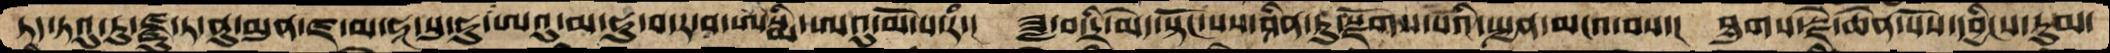ཏད་ཏའུ་རུ་ཛྫུ་ཏ་ནུ་མུན་ཛ་མ་ཧཱ་སུ་ཧུ་ཨའུ་མ་ཧུ་བ་ར་བ་ཨསྨི་ཨའུ་མོ་ས་རཾ་།  ཟླ་བ་དྲི་མེད་སྟོང་པས་ཤིན་ཏུ་སྫོགས་པའི་སྤྱན་མངའ་བས་།  ཐུགས་རྗེ་ཆེན་པོས་དབྱིངས་རུམ་
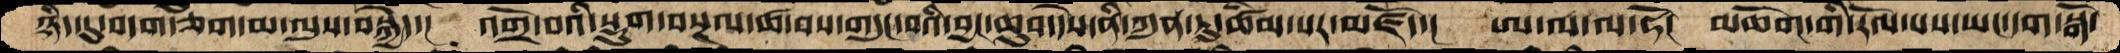ཉིད་དུ་བདག་ཅག་མ་ལུས་བསྐྱེད་།  འགྲོ་བའི་སྡུག་བསྔལ་ཚ་བས་གདུང་བའི་བྱང་ཆུབ་དེས་ནི་ཀུན་ཏུ་ཚིམ་པར་མཛོད་།   ཨ་ལ་ལ་ཧོ།  མཆོག་གི་རོལ་པས་ཡང་དག་སྒོ་
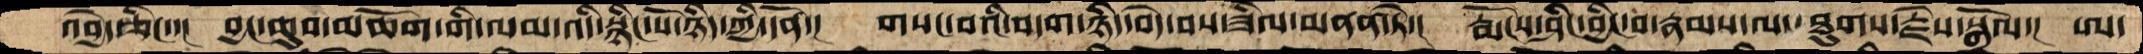འབྱེད་ཅིང་་།   བྱང་ཆུབ་མཆོག་གི་ལམ་འདི་སྙིང་པོ་ཉིད་ཀྱི་དོན་།  གསང་བའི་བདག་ཉིད་བདེ་བས་ཟིལ་མནན་ཏེ་།  རྨོངས་ཤིང་བྱིང་བ་རྣམས་ལ་ཐུགས་རྗེས་སྒྲོལ་།  ཨ་
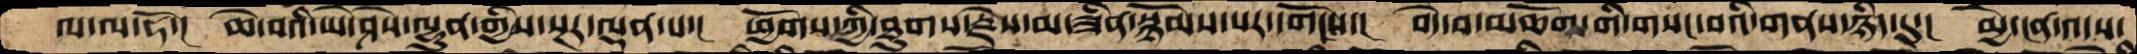ལ་ལ་ཧོ་།  ཆེ་བའི་ཡེ་ཤེས་ལྷུན་གྱིས་སྔར་ལྡན་པ་།  ཕྱོགས་ཀྱི་ཐུགས་རྗེས་མ་ཟིན་སྙོམས་པར་དགོངས་།  བདེ་བ་མཆོག་གི་གསང་བའི་གནས་ཉིད་དུ་།  མྱ་ངན་འདས་
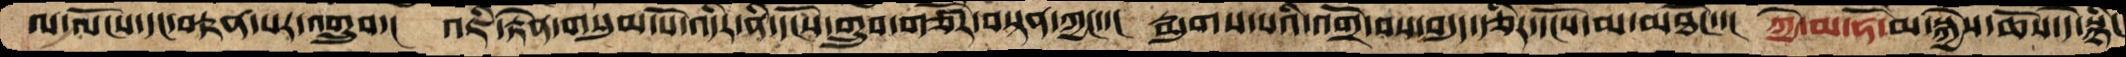ལ་ལོངས་དང་བརྟན་པར་འགྲུབ་།  འཇི་རྟེན་གསུམ་པོ་འདིར་ནི་དངོས་གྲུབ་གཙོར་བསྟན་ཀྱང་་།  རྨུགས་པའི་འགྲོ་བས་བདུད་རྩིར་དངོས་མ་མཐོང་་།  ཀྱེ་མ་ཧོ་མ་སྐྱེས་ཆོས་དེ་སྙིང
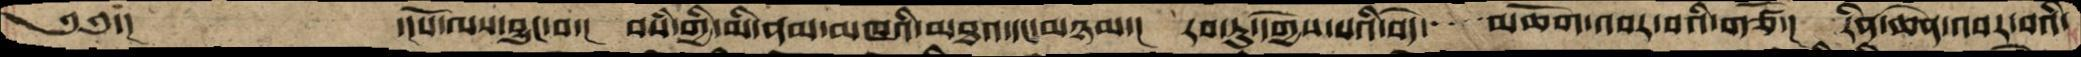༄༅་།        ་།པོ་ལས་བྱུང་བ་།   བསཾ་གྱི་མི་ནམ་མཁའི་མཐའ་དང་མཉམ་།  རབ་ཏུ་དགྱེས་པའི་བདེ་     མཆོག་འབར་བའི་གཙོ་།  རིན་ཆེན་འབར་བའི་
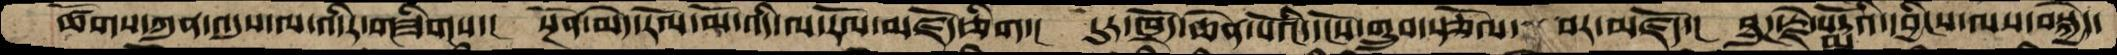ཚོགས་ཀུན་འདུས་ལ་འདིར་གཟིགས་།  སྔོན་མེད་རོལ་མོ་འདི་ལ་རོལ་མཛོད་ཅིག་།  དུར་ཁྲོད་ཆེན་པོའི་དངོས་གྲུབ་སྩོལ་   བར་མཛོད་།  ཐུཌ་རྗེ་པདྨོའི་དབྱིངས་ལས་བསྐྱེད་
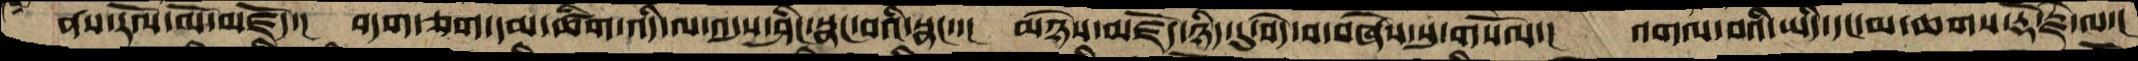ནས་རོལ་མོ་མཛོད་།   བདག་ཅག་དམ་ཚིག་འདི་ལ་འདུས་ཤིང་སྣང་བའི་སྣང་་།  མཉེས་མཛོད་ཉིད་དུ་བདེ་བ་བཞེས་སུ་གསོལ་།  འགལ་བའི་ཡིད་དང་མ་ཆགས་རྡོ་རྗེ་ལ་།
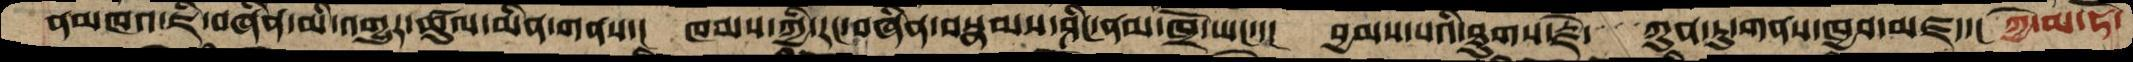ནམཁའ་ཇི་བཞིན་མི་འགྱུར་ཚུལ་མིན་གནས་།  ཁམས་ཀྱི་རང་བཞིན་བསྣམས་ཤིང་ནམ་ཁྲོ་ཡང་་།  བྱམས་པའི་ཐུགས་རྗེ་   ཀུན་ཏུ་གནས་ཁྱབ་མཛད་།  ཀྱེ་མ་ཧོ་
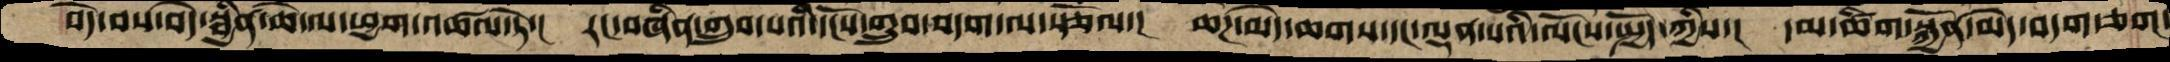བདེ་བས་བདེ་སྦྱིན་ཆེ་ལ་ཕྱག་འཚལ་ཏེ་།  རང་བཞིན་གྲུབ་པའི་དངོས་གྲུབ་བདག་ལ་སྩོལ་།  ཆཌ་མེད་ཆགས་དང་ལྡན་པའི་ལོངས་སྤྱོད་ཀྱིས་།  དམ་ཚིག་སྐྱོན་མེད་བདག་ཅག་
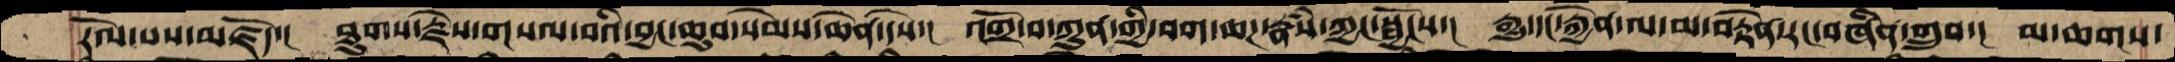རོལ་པས་མཛོད་།  ཐུགས་རྗེས་གསལ་བའི་བྱང་ཆུབ་སེམས་ཆེན་དེས་།  འགྲོ་བ་ཀུན་གྱི་བག་ཆཌ་རྣཾས་ཀྱང་སྦྱོངས་།  རྒྱུ་དང་རྐྱེན་ལ་མ་བརྟེན་རང་བཞིན་གྲུབ་།  མ་ཆགས་
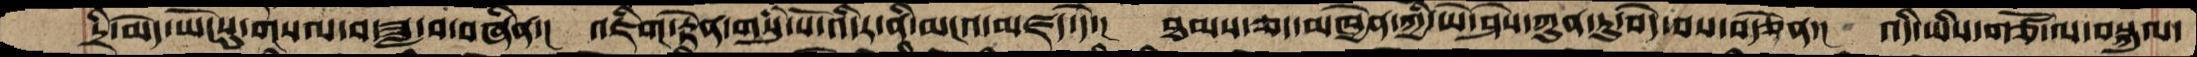དྲི་མེད་ཡོངསུ་གསལ་བ་ཟླ་བ་བཞིན་།  འཇིག་རྟེན་གསུཾ་པོོ་འདིར་ནི་མངའ་མཛད་དེ་།  ཐམས་ཅན་མཁྱེན་ཀྱི་ཡེ་ཤེས་ཀུན་ཏུ་བདེ་བས་བརྩེན་།  འདི་ཡིས་གཙོ་ལ་བསྐུལ་
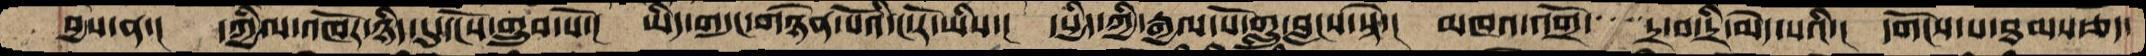བྱས་ན་།  དཀྱིལ་འཁོར་ཉིད་དུ་དངོས་གྲུབ་སོ་།  ཡིད་གདུང་གཉེན་པོའི་ང་རོ་ཡིས་།  དཔྱིད་ཀྱི་རྒྱལ་པོ་གླུ་བླངས་སྟེ་།  མཁའ་འགྲོ་   དྲ་བ་དྲི་མེད་པའི་།  དགོངས་པ་ཐམས་ཅད་
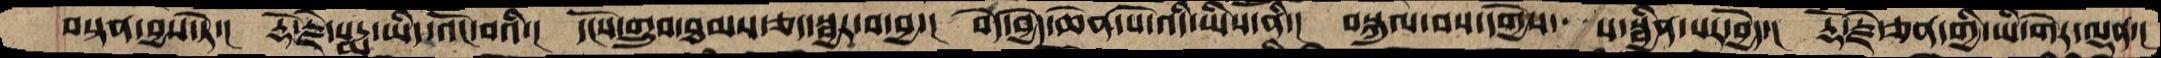བསྟན་བྱས་ཏེ་།  རྡོ་རྗེ་པདྨ་ཡིད་འོང་བའི་།  དངོས་གྲུབ་ཐམས་ཅད་སྦྱར་བ་བྱ་།  བདེ་བྱེད་ཆེན་པོ་འདི་ཡིས་ནི་།  བསྐུལ་བས་དགྱེས་   པ་སྦྱིན་པར་བྱེད་།  རྡོ་རྗེ་ཅན་གྱི་ཡི་གེར་ལྡན་།
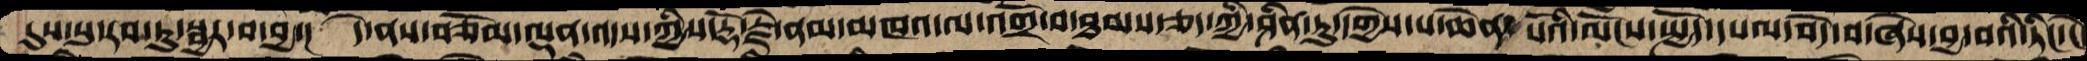དུས་སུ་རབ་ཏུ་སྦྱར་བ་བྱ་།   དེ་ནས་བཅོམ་ལྡན་འདས་ཀྱིས་རྡོ་རྗེ་ནམ་མཁའ་ལ་འགྲོ་བ་ཐམས་ཅད་ཀྱི་ཤིན་ཏུ་དགྱེས་པ་ཆེན་པོའི་ལོངས་སྤྱོད་དཔལ་བདེ་བ་ཞེས་བྱ་བའི་ཏིང་ངེ
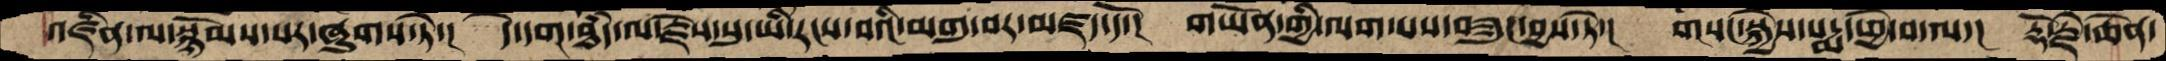འཛིན་ལ་སྙོམས་པར་ཞུགས་ཏེ་།   དེ་དག་ཐཾད་ལ་རྗེས་སུ་ཡི་རངས་བའི་མགུ་བར་མཛད་དོ་།   གཡོན་གྱི་ལག་པས་བཟུང་བྱས་ཏེ་།  གསང་སྐྱེས་པདྨ་ཕྱེ་བ་ལ་།  རྡོ་རྗེ་ཆེན་
